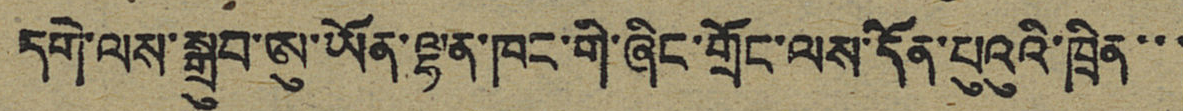དགེ་ལས་སྒྲུབ་ཨུ་ཡོན་ལྷན་ཁང་གི་ཞིང་གྲོང་ལས་དོན་པུའུའི་ཁྲིན་་་
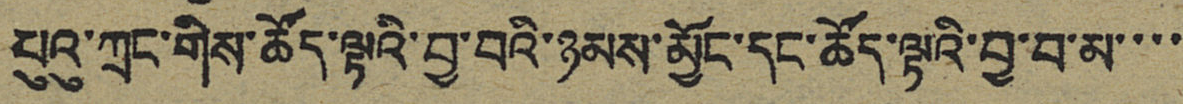པུའུ་ཀྲང་གིས་ཚོད་ལྟའི་བྱ་བའི་ཉམས་མྱོང་དང་ཚོད་ལྟའི་བྱ་བ་མ་་་་
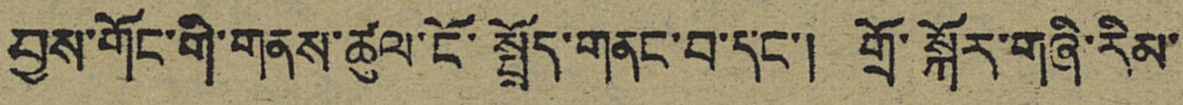བྱས་གོང་གི་གནས་ཚུལ་ངོ་སྤྲོད་གནང་བ་དང་། གྲོ་སྐོར་གཞི་རིམ་
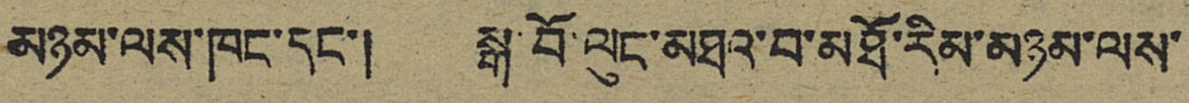མཉམ་ལས་ཁང་དང་། སྒ་བོ་ལུང་མཐའ་བ་མཐོ་རིམ་མཉམ་ལས་
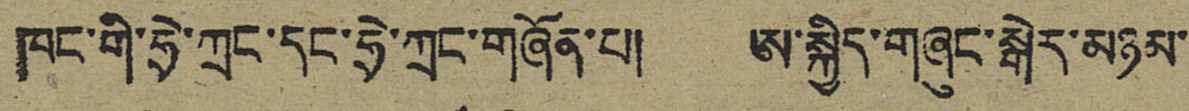ཁང་གི་ཧྲེ་ཀྲང་དང་ཧྲེ་ཀྲང་གཞོན་པ། ཨ་སྐྱིད་གཞུང་སྒེར་མཉམ་
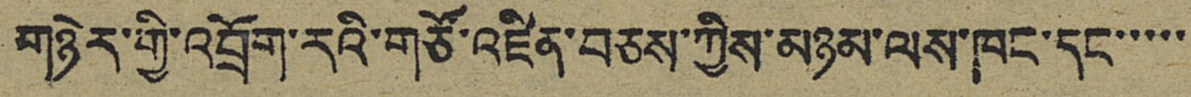གཉེར་གྱི་འབྲོག་རའི་གཙོ་འཛིན་བཅས་ཀྱིས་མཉམ་ལས་ཁང་དང་་་་་
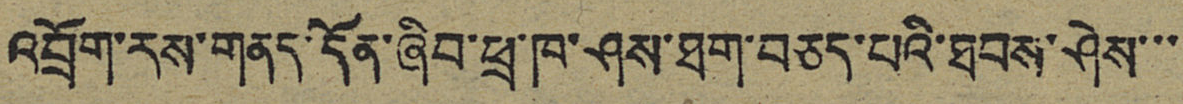འབྲོག་རས་གནད་དོན་ཞིབ་ཕྲ་ཁ་ཤས་ཐག་བཅད་པའི་ཐབས་ཤེས་་་
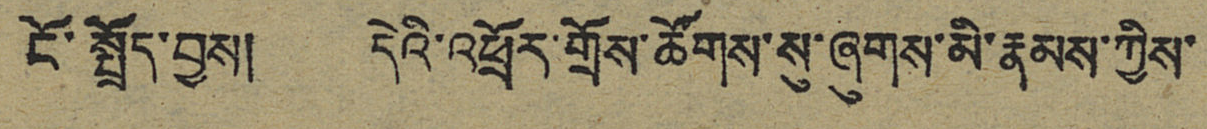ངོ་སྤྲོད་བྱས། དེའི་འཕྲོར་གྲོས་ཚོགས་སུ་ཞུགས་མི་རྣམས་ཀྱིས་
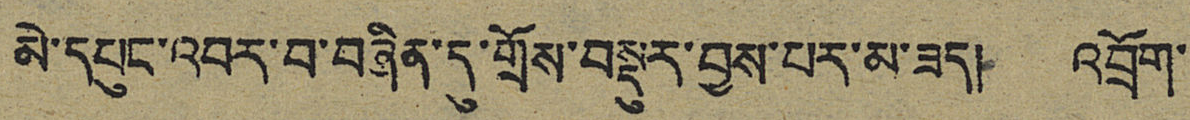མེ་དཔུང་འབར་བ་བཞིན་དུ་གྲོས་བསྡུར་བྱས་པར་མ་ཟད། འབྲོག་
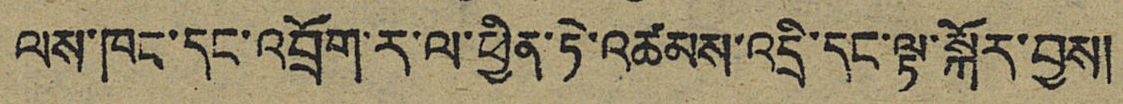ལས་ཁང་དང་འབྲོག་ར་ལ་ཕྱིན་ཏེ་འཚམས་འདྲི་དང་ལྟ་སྐོར་བྱས།
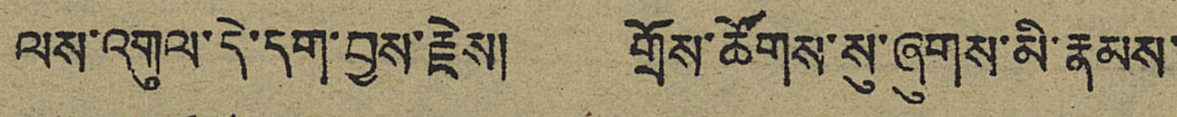ལས་འགུལ་དེ་དག་བྱས་རྗེས། གྲོས་ཚོགས་སུ་ཞུགས་མི་རྣམས་
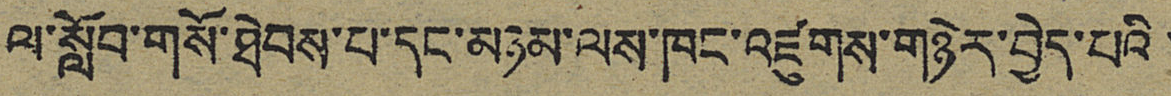ལ་སློབ་གསོ་ཐེབས་པ་དང་མཉམ་ལས་ཁང་འཛུགས་གཉེར་བྱེད་པའི་
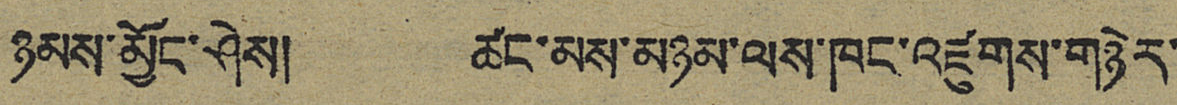ཉམས་མྱོང་ཤེས། ཚང་མས་མཉམ་ལས་ཁང་འཛུགས་གཉེར་
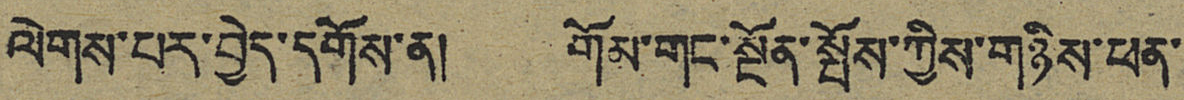ལེགས་པར་བྱེད་དགོས་ན། གོམ་གང་སྔོན་སྤོས་ཀྱིས་གཉིས་ཕན་
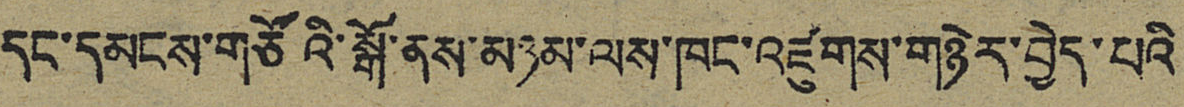དང་དམངས་གཙོའི་སྒོ་ནས་མཉམ་ལས་ཁང་འཛུགས་གཉེར་བྱེད་པའི་
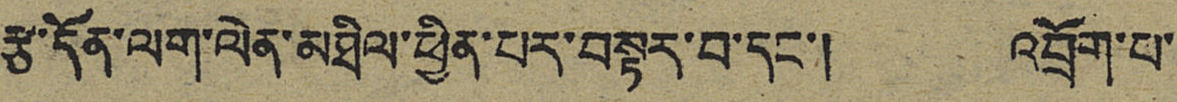རྩ་དོན་ལག་ལེན་མཐིལ་ཕྱིན་པར་བསྟར་བ་དང་། འབྲོག་པ་
